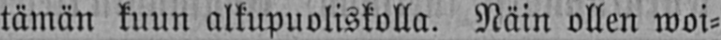tämän kuun alkupuoliskolla. Näin ollen woi-
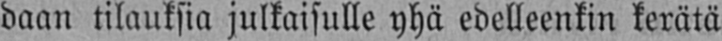daan tilauksia julkaisulle yhä edelleenkin kerätä
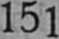151
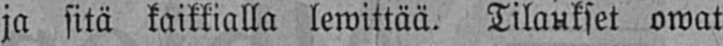ja sitä kaikkialla lewittää. Tilaukset owat
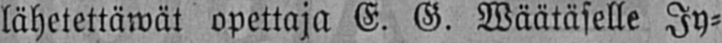lähetettäwät opettaja E. G. Wäätäselle Jy-
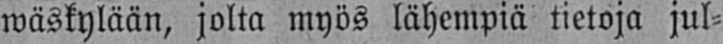wäskylään, jolta myös lähempiä tietoja jul-
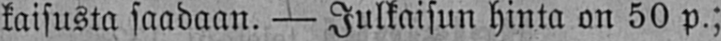kaisusta saadaan. — Julkaisun hinta on 50 p.;
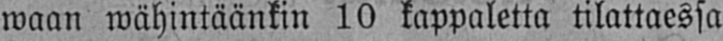waan wähintäänkin 10 kappaletta tilattaessa
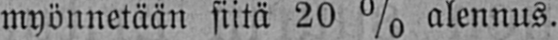myönnetään siitä 20% alennus.
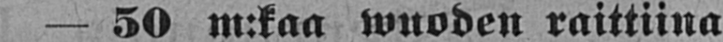— 50 m:kaa wuoden raittiina
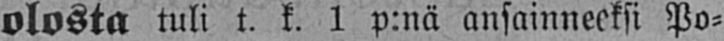olosta tuli t. k. 1 p:nä ansainneeksi Po-
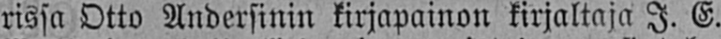rissa Otto Andersinin kirjapainon kirjaltaja I. E.
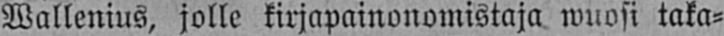Wallenius, jolle kirjapainonomistaja wuosi taka-
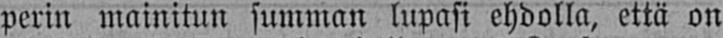perin mainitun summan lupasi ehdolla, että on
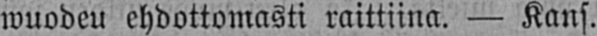wuodeu ehdottomasti raittiina. — Kans.
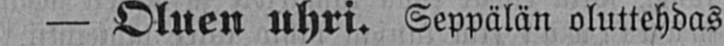— Oluen uhri. Seppälän oluttehdas
